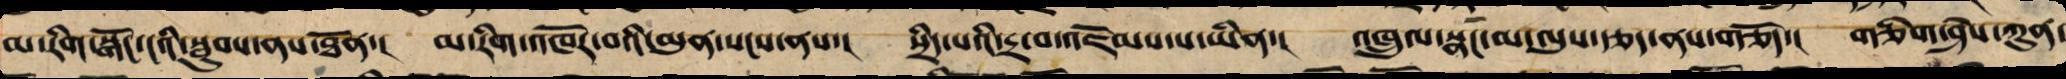མ་རིག་སྒོ་ངའི་སྦུབས་ནས་ཐོན་། མ་རིག་འཁོར་བའི་མུན་སངས་ནས་། སྲིད་པའི་དྲ་བ་འཇོམས་པ་ཡིན་། འཁྲུལ་སྣང་མ་ལུས་རྩད་ནས་གཅོད་། གཅིག་ཤེས་ཀུན་
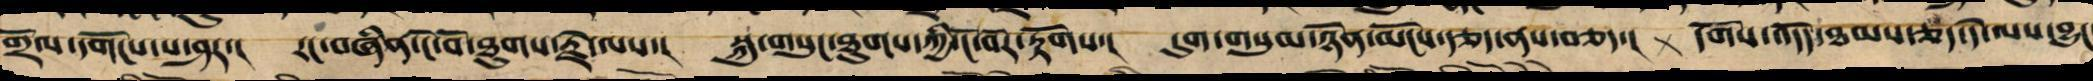གྲོལ་དགོངས་པ་ཤར་། རང་བཞིན་ངོ་བོ་ཐུགས་རྗེ་ལས་། སྐུ་གསུང་ཐུགས་ཀྱི་ངོ་བོར་རྟོགས་། དུག་གསུམ་ཉོན་མོངས་རྩད་ནས་བཅད་། དགོས་འདོད་ཐམས་ཅད་དེ་ལས་བྱུང་
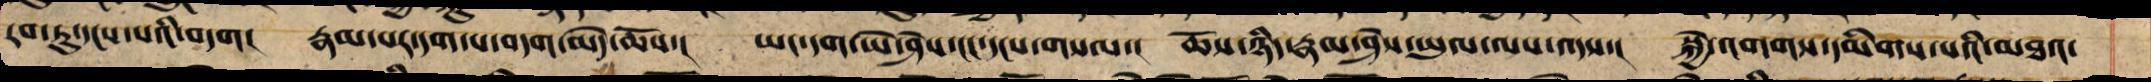རབ་ཏུ་དངས་པའི་བདག། རྣམ་པར་དག་པ་བདག་མེད་ཆོས་། ཡང་དག་ཡེ་ཤེས་ངང་དངས་གསལ་། ཆོས་ཉིད་རྣམ་ཤེས་ཡུལ་ལས་འདས་། སྐྱེ་འགག་དམིགས་པའི་མཐའ་
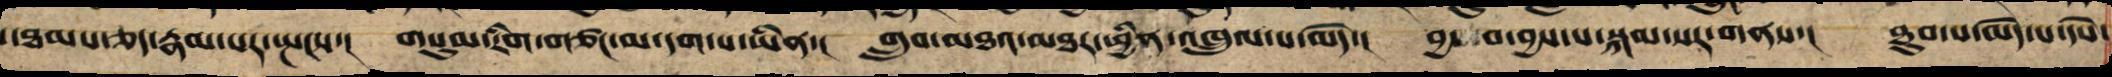་ཐམས་ཅད་རྣམ་པར་སྤངས་། གསུམ་རིག་གཙང་མ་དག་པ་ཡིན་། གྲུབ་མཐའ་མཐར་ཕྱིན་འཁྲུལ་པ་མེད་། བྱ་བ་བྱས་པ་སྐམ་སར་གནས་། ཐུབ་པ་མེད་པ་དཔེ་
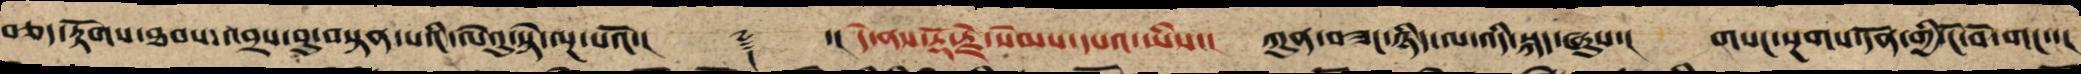བཅད་རྟོགས་ཐབས་འབྲས་བུ་བསྟན་པའི་ལེའུ་སྟེ་ལྔ་པའོ་།། ༈ ་།། དེ་ནས་རྡོ་རྗེ་སེམས་དཔའ་ཡིས་། ཀུན་བཟང་ཉིད་ལ་འདི་སྐད་ཞུས་། གསང་སྔགས་དོན་གྱི་ངོ་བོ་གང་་།
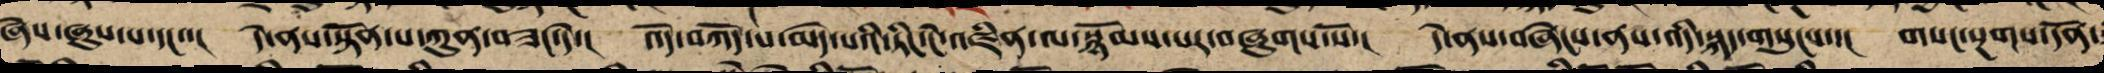ཞེས་ཞུས་པ་དང་་། དེ་ནས་སྟོན་པ་ཀུན་བཟང་དེ་། འོད་བཀོལ་བ་མེད་པའི་ཏིང་ངེ་འཛིན་ལ་སྙོམས་པར་བཞུགས་སོ་། དེ་ལས་བཞེངས་ནས་འདི་སྐད་གསུངས་། གསང་སྔགས་དོན་
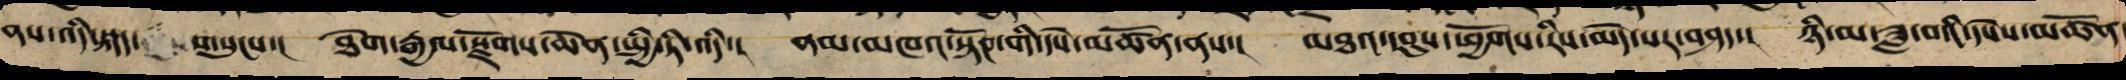ནས་འདི་སྐད་ གསུངས་། ཐེག་རྒྱལ་རྫོགས་ཆེན་སྤྱི་ཏི་འདི་། ནམ་མཁའ་སྟོང་གི་དཔེ་མཚོན་ནས་། མཐའ་དབུས་ཕྱོགས་རིས་མེད་པར་བཤད་། ཉི་མ་ཟླ་བའི་དཔེས་མཚོན་
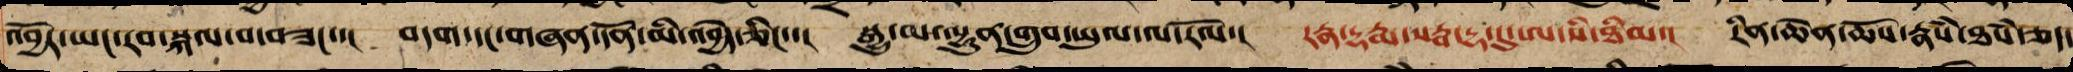འབྱོར་ཡང་རབ་སྐལ་བ་བཟང་་། བདག་དང་གཞན་དོན་མི་འབྱེད་ཅིང་་། སྒྱུ་མ་ལྷུན་གྲུབ་ཡུལ་ལ་རོལ་། རཏྣ་དྷརྨ་སརྦ་དྷ་དུ་ཨ་སི་ཐིམ་། རིན་ཆེན་ཆོས་རྣཾས་ཐཾས་ཅད་
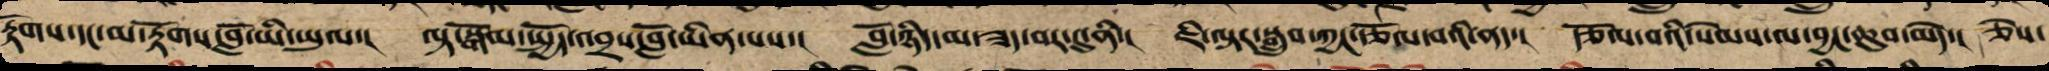རྟོགས་དང་མ་རྟོགས་བློ་ཡི་ཡུལ་། ལྟ་སྒོམ་སྤྱོད་འབྲས་བློ་ཡིན་པས་། བློ་ཉིད་མ་ཟད་བར་དུ་ནི་། ཇི་ལྟར་སྒྲུབ་ཀྱང་རྩོལ་བའི་ནད་། རྩོལ་བའི་སེམས་ལ་བྱང་ཆུབ་མེད་། ཅེས་
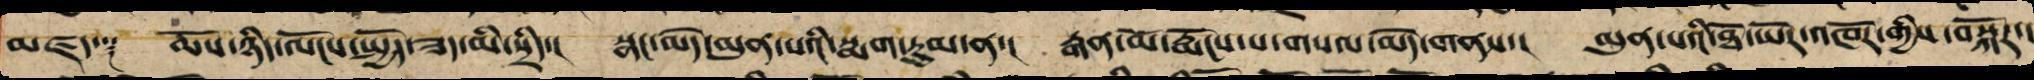མཛད་༑ ཆོས་ཉིད་ལོངས་སྤྱོད་ཟད་མི་སྲིད་། སྣང་མེད་མུན་པའི་སྨག་རུམ་ན་། རྒན་མོ་རྨོངས་པ་གསལ་མེད་གནས་། མུན་པའི་ཐོ་ཡོར་འཁོར་གྱིས་བསྐོར་།
